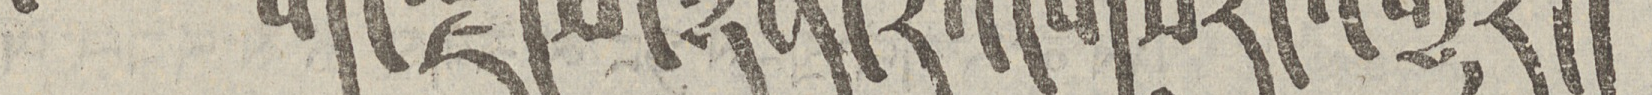༄ བོད་ལྗོངས་ཉིན་རེའི་གསར་འགྱུར།
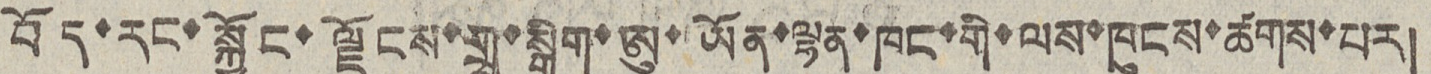བོད་རང་སྐྱོང་ལྗོངས་གྲྭ་སྒྲིག་ཨུ་ཡོན་ལྷན་ཁང་གི་ལས་ཁུངས་ཚགས་པར།
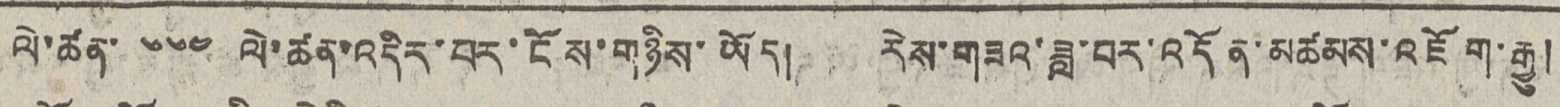ལི་ཚན་ ༦༦༤ ལེ་ཚན་འདིར་པར་ངོས་གཉིས་ཡོད། རེས་གཟའ་ཟླ་བར་འདོན་མཚམས་འཇོག་རྒྱུ།
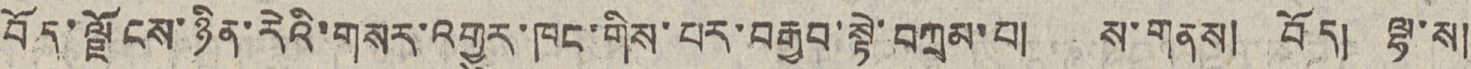བོད་ལྗོངས་ཉིན་རེའི་གསར་འགྱུར་ཁང་གིས་པར་བརྒྱབ་སྟེ་བཀྲམ་པ། ས་གནས། བོད། ལྟ་ས།
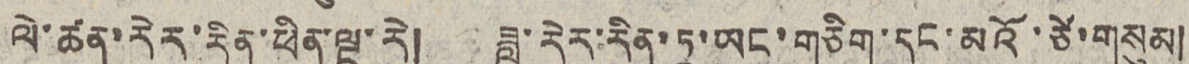ལེ་ཚན་རེར་རིན་ཕིན་ལྔ་རེ། ཟླ་རིར་རིན་ཏཱ་ཡང་གཅིག་དང་མའོ་ཙེ་གསུམ།
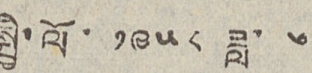སྤྱི་ལོ་ ༡༩༥༨ ཟླ་ ༦
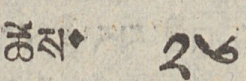ཚེས་ ༢༦
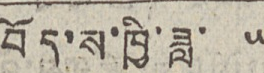བོད་ས་ཁྱི་ཟླ་ ༥
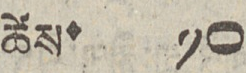ཚེས་ ༡༠
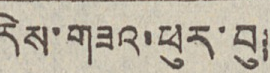རེས་གཟའ་ཕུར་བུ།
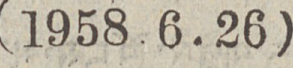(1958.6.26)
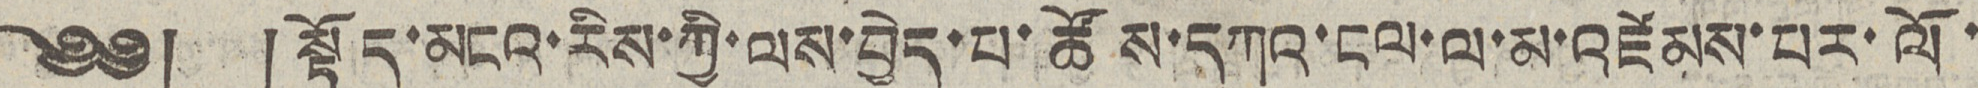༄༅། །སྟོད་མངའ་རིས་ཀྱི་ལས་བྱེད་པ་ཚོས་དཀའ་ངལ་ལ་མ་འཛེམས་པར་ལོ་
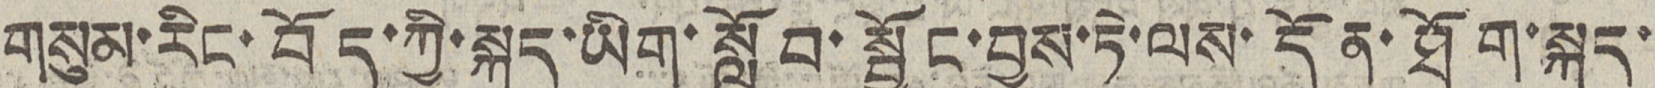གསུམ་རིང་བོད་ཀྱི་སྐད་ཡིག་སློབ་སྦྱོང་བྱས་ཏེ་ལས་དོན་ཐོག་སྐད་
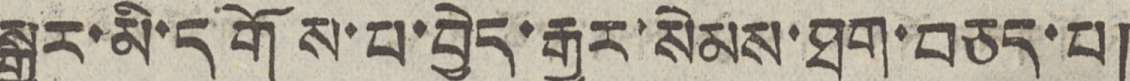སྒྱུར་མི་དགོས་པ་བྱེད་རྒྱུར་སེམས་ཐག་བཅད་པ།
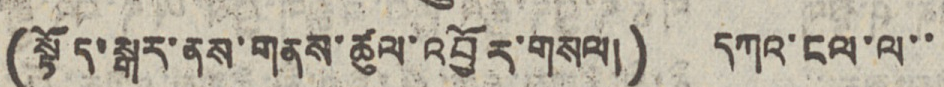(སྟོད་སྒར་ནས་གནས་ཚུལ་འབྱོར་གསལ།) དཀའ་ངལ་ལ་་
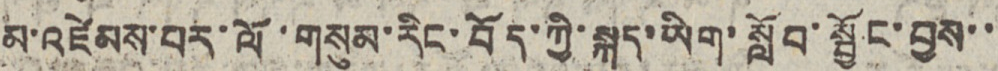མ་འཛེམས་པར་ལོ་གསུམ་རིང་བོད་ཀྱི་སྐད་ཡིག་སློབ་སྦྱོང་བྱས་་
